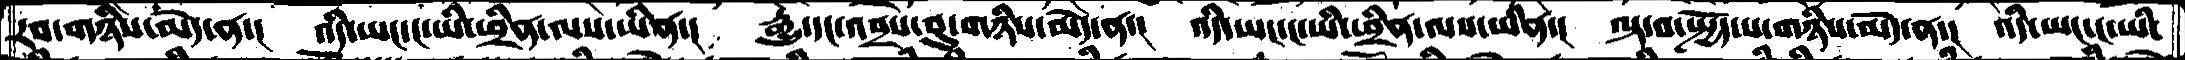རབ་གཉིས་མེད་ན་།  འདི་ཡང་ང་ཡི་ཕྲིན་ལས་ཡིན་།  རྒྱུ་དང་འབྲས་བུ་གཉིས་མེད་ན་།  འདི་ཡང་ང་ཡི་ཕྲིན་ལས་ཡིན་།  ལྟ་བ་སྤྱོད་པ་གཉིས་མེད་ན་།  འདི་ཡང་ང་ཡི་
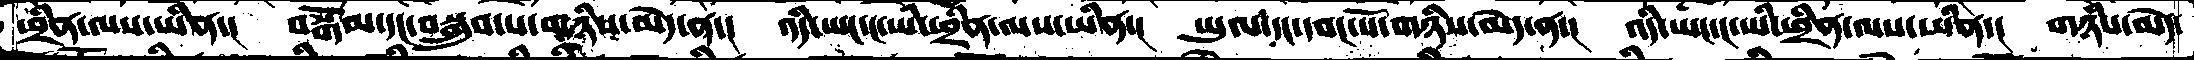ཕྲིན་ལས་ཡིན་།  བསྒོམ་དང་བསྒྲུབ་པ་གཉིས་མེད་ན་།  འདི་ཡང་ང་ཡི་ཕྲིན་ལས་ཡིན་།  ཡུལ་དང་དབང་པོ་གཉིས་མེད་ན་།  འདི་ཡང་ང་ཡི་ཕྲིན་ལས་ཡིན་།  གཉིས་མེད་
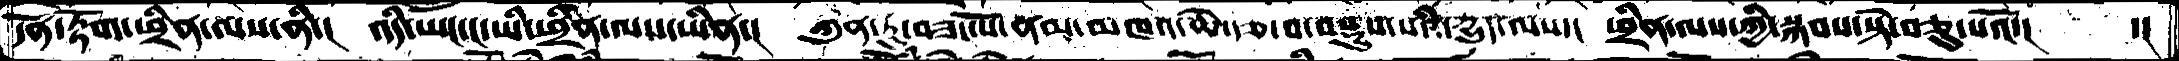དོན་རྟོག་ཕྲིན་ལས་ནི་།  འདི་ཡང་ང་ཡི་ཕྲིན་ལས་ཡིན་།  ཀུན་ཏུ་བཟང་པོ་ནམ་མཁའ་ཆེ་རྩ་བ་བསྡུས་པའི་དྱུད་ལས་།  ཕྲིན་ལས་ཀྱི་སྐབས་སྟེ་བཅུ་པའོ་།   ་།
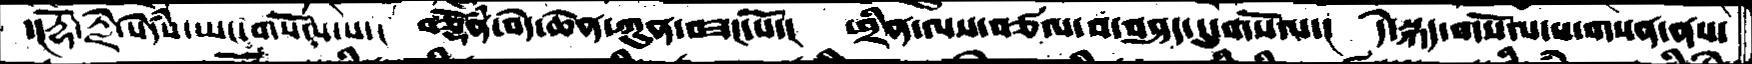་།རྡོ་རྗེ་སེཾདས་ཡང་གསོལ་པ་།  བཅྡོཾན་བདེ་ཆེན་ཀུན་བཟང་པོ་།  ཕྲིན་ལས་བཙལ་བ་བཤད་དུ་གསོལ་།  དེ་སྐད་གསོལ་པ་གསན་ནས་
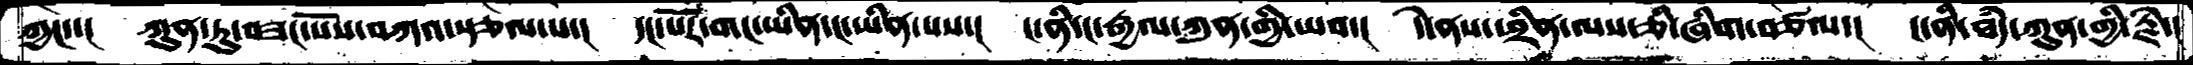ཀྱང་་།  ཀུན་ཏུ་བཟང་པོས་བཀའ་རྩལ་པ་།  དང་པོར་གང་ཡིན་ང་ཡིན་པས་།  ང་ནི་ང་རྒྱལ་ཀུན་གྱི་ཡབ་།  དེ་ནས་ཕྲིན་ལས་ཅི་ཞིག་བཙལ་།  ང་ནི་ཐཾད་ཀུན་གྱི་རྗེ་།
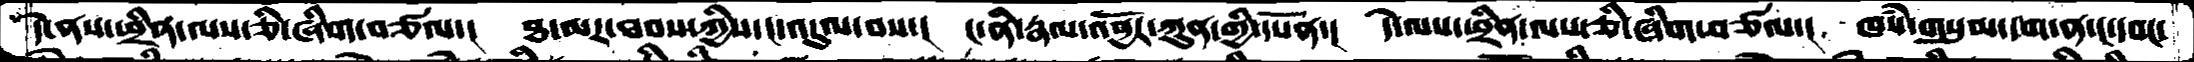དེ་ནས་ཕྲིན་ལས་ཅི་ཞིག་བཙལ་།  ཐ་མར་ཐབས་ཀྱིས་ང་འདུལ་བས་།  ང་ནི་རྣལ་འབྱོར་ཀུན་གྱི་དཔོན་།  དེ་ལས་ཕྲིན་ལས་ཅི་ཞིག་བཙལ་།  ཁཾས་གསུམ་དག་ན་དབང་
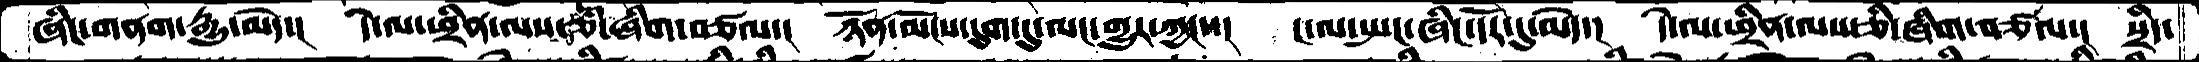ཞིང་གནག་རྒྱུ་མེད་།  དེ་ལ་ཕྲིན་ལས་ཅི་ཞིག་བཙལ་།  ཉོན་མོངས་དྲུག་དུ་ལང་གྱུར་ཀྱང་་།  ང་ལ་སྤང་ཞིང་དོར་དུ་མེད་།  དེ་ལ་ཕྲིན་ལས་ཅི་ཞིག་བཙལ་།  སྲིད་
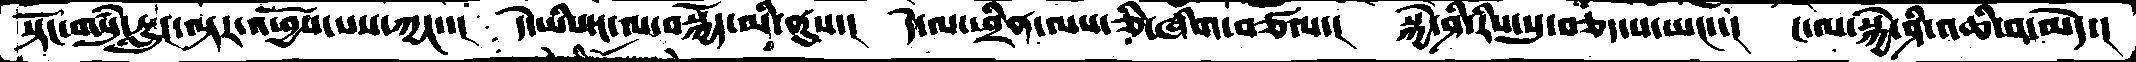སྟོང་གསུམ་རླུང་ལྟར་འཕྱོས་པས་ཀྱང་་།  དེ་ཡིས་ང་ལ་བསྐྱོད་མི་ནུས་།  དེ་ལ་ཕྲིན་ལས་ཅི་ཞིག་བཙལ་།  སྐྱེ་ཤི་རིས་སུ་བཅད་པ་ཡང་་།  ང་ལ་སྐྱེ་ཤི་འཆི་བ་མེད་།
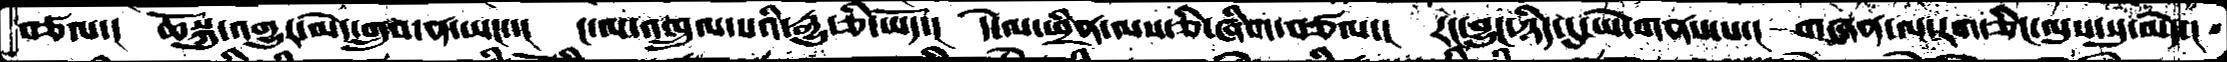བཙལ་།  ཆོསྐུ་འགྱུར་མེད་གྲུབ་ན་ཡང་་།  ང་ལ་འཁྲུལ་པའི་རྒྱུ་ཅི་ཡོད་།  དེ་ལ་ཕྲིན་ལས་ཅི་ཞིག་བཙལ་།  རང་བྱུང་ཉིད་དུ་ཡེ་གནས་པ་།  གཞན་ལ་རག་ཅིང་ལུས་སུ་མེད་།
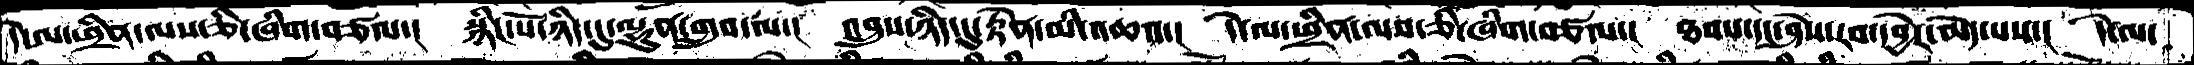དེ་ལ་ཕྲིན་ལས་ཅི་ཞིག་བཙལ་།  སྙིང་པོ་ཉིད་དུ་ལྷུན་གྲུབ་ལ་།  འབྲུས་ཉིད་དུ་རྟེན་མི་འཆའ་།  དེ་ལ་ཕྲིན་ལས་ཅི་ཞིག་བཙལ་།  ཐབས་དང་ཤེས་རབ་དབྱེར་མེད་པས་།  དེ་ལ་
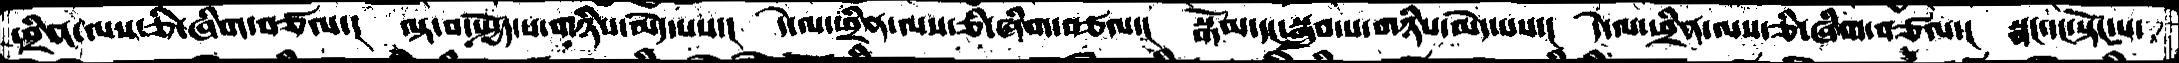ཕྲིན་ལས་ཅི་ཞིག་བཙལ་།  ལྟ་བ་སྤྱོད་པ་གཉིས་མེད་པས་།  དེ་ལ་ཕྲིན་ལས་ཅི་ཞིག་བཙལ་།  སྒོམ་དང་སྒྲུབ་པ་གཉིས་མེད་པས་།  དེ་ལ་ཕྲིན་ལས་ཅི་ཞིག་བཙལ་།  སྣང་དང་སྟོང་པ་
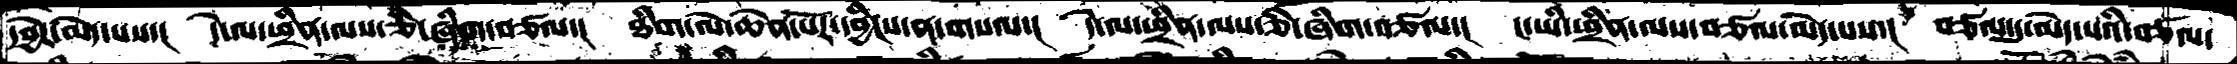དབྱེར་མེད་པས་།  དེ་ལ་ཕྲིན་ལས་ཅི་ཞིག་བཙལ་།  ཐིག་ལེ་ཆེན་པོར་དབྱིངས་ན་གསལ་།  དེ་ལ་ཕྲིན་ལས་ཅི་ཞིག་བཙལ་།  ང་ཡི་ཕྲིན་ལས་བཙལ་མེད་པས་།  བཙལ་དུ་མེད་པའི་བཙལ་
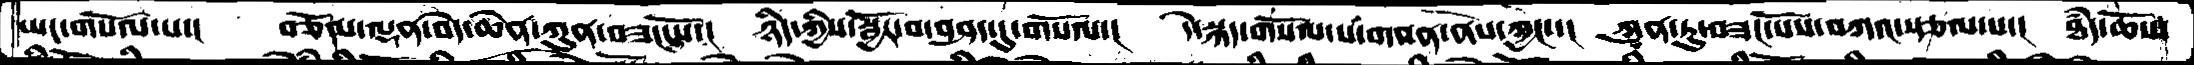ཡང་གསོལ་པ་།  བཅོམ་ལྡན་བདེ་ཆེན་ཀུན་བཟང་པོ་།  ཉིད་ཀྱིས་སྦྱོར་བ་བཤད་དུ་གསོལ་།  དེ་སྐད་གསོལ་པ་གསན་ནས་ཀྱང་་།  ཀུན་ཏུ་བཟང་པོས་བཀའ་སྩལ་པ་།  ཐཾད་ཆོས་
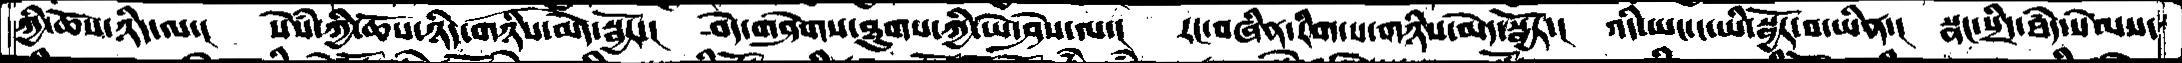ཀྱི་ཆོས་ཉིད་ལ་།  སེཾས་ཀྱི་ཆོས་ཉིད་གཉིས་མེད་སྦྱོར་།  བདེ་གཤེགས་ཐུགས་ཀྱི་ཡེ་ཤེས་ལ་།  རང་བཞིན་རིག་པ་གཉིས་མེད་སྦྱོར་།  འདི་ཡང་ང་ཡི་སྦྱོར་བ་ཡིན་།  སྣང་སྲིད་ཐཾད་སེམས་
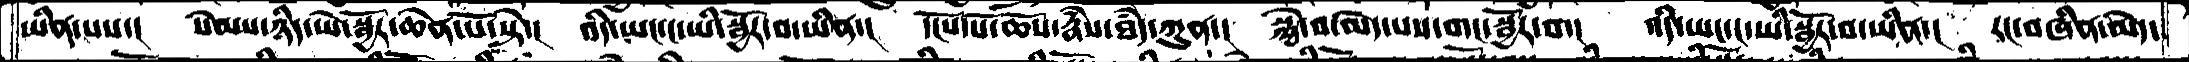ཡིན་པས་།  སེམས་ཉིད་ཡེ་སྦྱོར་ཆེན་པོ་སྟེ་།  འདི་ཡང་ང་ཡི་སྦྱོར་བ་ཡིན་།  དངོས་པོ་ཆོས་རྣཾས་ཐཾད་ཀུན་།  སྐྱེ་བ་མེད་པས་གང་སྦྱོར་བ་།  འདི་ཡང་ང་ཡི་སྦྱོར་བ་ཡིན་།  རང་བཞིན་མེད་
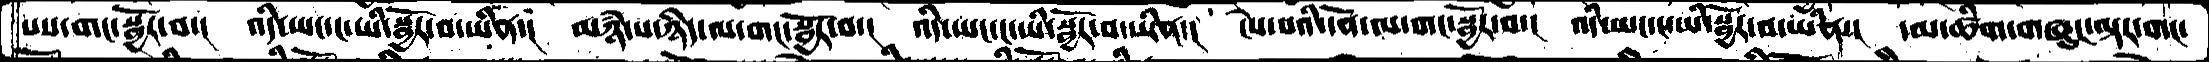པས་གང་སྦྱོར་བ་།  འདི་ཡང་ང་ཡི་སྦྱོར་བ་ཡིན་།  མཉཾ་པ་ཉིད་ལ་གང་སྦྱོར་བ་།  འདི་ཡང་ང་ཡི་སྦྱོར་བ་ཡིན་།  ངེས་པའི་དོན་ལ་གང་སྦྱོར་བ་།  འདི་ཡང་ང་ཡི་སྦྱོར་བ་ཡིན་།  དམ་ཚིག་གཞུང་ལྟར་གང་
